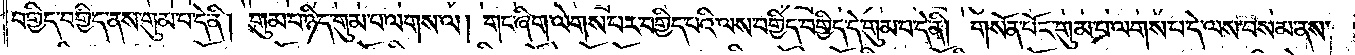བགྱིད་བགྱིད་ནས་གུམ་པ་དེ་ནི། གུམ་པ་ཉིད་གུམ་པ་ལགས་ལ། གང་ཞིག་ལེགས་པར་བགྱིད་པའི་ལས་བགྱིད་བགྱིད་དེ་གུམ་པ་དེ་ནི། གསོན་པོར་གུམ་པ་ལགས་པ་དེ་ལས་བསམ་ནས་
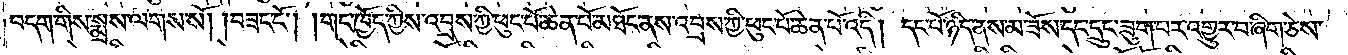བདག་གིས་སྨྲས་ལགས་སོ། །བཟང་ངོ༌། །གང་ཁྱོད་ཀྱིས་འབྲས་ཀྱི་ཕུང་པོ་ཆེན་པོ་མཐོང་ནས་འབྲས་ཀྱི་ཕུང་པོ་ཆེན་པོ་འདི། །དང་པོ་ཉིད་ནས་མ་ཟོས་དང་དྲུང་ཟུག་པར་འགྱུར་བ་ཞིག་ཅེས་
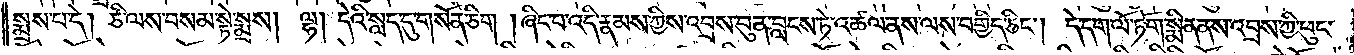སྨྲས་པ་དེ། ཅི་ལས་བསམ་སྟེ་སྨྲས། ལྷ། དེའི་སླད་དུ་གསོན་ཅིག །ཞིང་པ་འདི་རྣམས་ཀྱིས་འབྲས་བུན་བླངས་ཏེ་འཚལ་ནས་ལས་བགྱིད་ཅིང༌། དེ་དག་ལོ་ཏོག་སྨིན་ནས་འབྲས་ཀྱི་ཕུང་
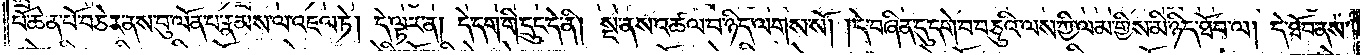པོ་ཆེན་པོ་བཅེར་ནས་བུ་ལོན་པ་རྣམས་ལ་འཇལ་ཏེ། དེ་ལྟར་ན། དེ་དག་གི་དྲུང་དེ་ནི། སྔ་ནས་འཚལ་བ་ཉིད་ལགས་སོ། །དེ་བཞིན་དུ་དགེ་བ་བཅུའི་ལས་ཀྱི་ལམ་གྱིས་མི་ཉིད་ཐོབ་ལ། དེ་ཐོབ་ནས་
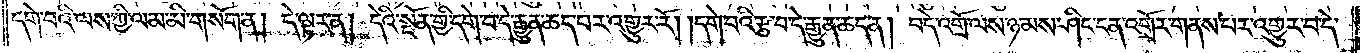དགེ་བའི་ལས་ཀྱིས་ལམ་མི་གསོག་ན། དེ་ལྟར་ན། དེའི་སྔོན་གྱི་དགེ་བ་དེ་རྒྱུན་ཆད་པར་འགྱུར་རོ། །དགེ་བའི་རྩ་བ་དེ་རྒྱུན་ཆད་ན། བདེ་འགྲོ་ལས་ཉམ་ཤིང་ངན་འགྲོར་གནས་པར་འགྱུར་བ་དེ་
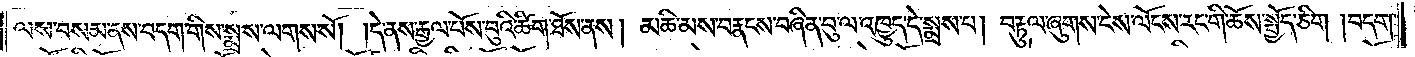ལས་བསམ་ནས་བདག་གིས་སྨྲས་ལགས་སོ། །དེ་ནས་རྒྱལ་པོས་བུའི་ཚིག་ཐོས་ནས། མཆི་མས་བརྣངས་བཞིན་བུ་ལ་འཁྱུད་དེ་སྨྲས་པ། བརྟུལ་ཞུགས་ངེས་ལོངས་རང་གི་ཆོས་སྤྱོད་ཅིག །བདག་
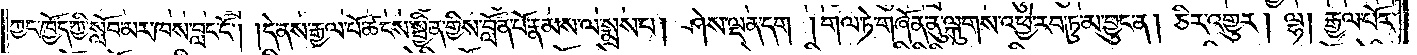ཀྱང་ཁྱོད་ཀྱི་སློབ་མར་ཁས་བླང་ངོ༌། །དེ་ནས་རྒྱལ་པོ་ཚངས་སྦྱིན་གྱིས་བློན་པོ་རྣམས་ལ་སྨྲས་པ། ཤེས་ལྡན་དག །གལ་ཏེ་གཞོན་ནུ་ལྐུགས་འཕྱེ་རབ་ཏུ་མ་བྱུང་ན། ཅིར་འགྱུར། །ལྷ། རྒྱལ་པོར་
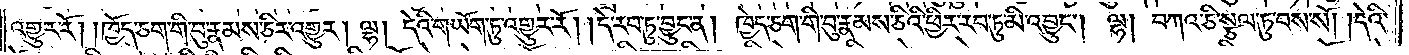འགྱུར་རོ། །ཁྱོད་ཅག་གི་བུ་རྣམས་ཅིར་འགྱུར། ལྷ། དེའི་གཡོག་ཏུ་འགྱུར་རོ། །དེ་རབ་ཏུ་བྱུང་ན། ཁྱེད་ཅག་གི་བུ་རྣམས་ཅིའི་ཕྱིར་རབ་ཏུ་མི་འབྱུང༌། །ལྷ། བཀའ་ཅི་སྩལ་ཏུ་བས་སོ། །དེའི་
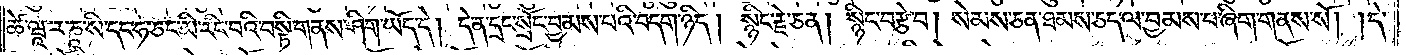ཚེ་ཝཱ་ར་ཎཱ་སི་དང་ཧ་ཅང་མི་རིང་བའི་བསྟི་གནས་ཤིག་ཡོད་དེ། དེ་ན་དྲང་སྲོང་བྱམས་པའི་བདག་ཉིད། སྙིང་རྗེ་ཅན། སྙིང་བརྩེ་བ། སེམས་ཅན་ཐམས་ཅད་ལ་བྱམས་པ་ཞིག་གནས་སོ། །དེ་
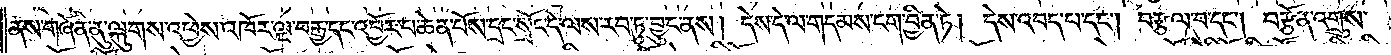ནས་གཞོན་ནུ་ལྐུགས་འཕྱེས་འཁོར་ལྔ་བརྒྱ་དང་འབྱོར་པ་ཆེན་པོས་དྲང་སྲོང་དེ་ལས་རབ་ཏུ་བྱུང་ནས། དེས་དེ་ལ་གདམས་ངག་བྱིན་ཏེ། དེས་འབད་པ་དང༌། བརྩལ་བ་དང༌། བརྩོན་འགྲུས་
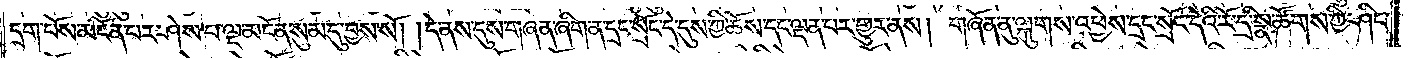དྲག་པོས་མངོན་པར་ཤེས་པ་ལྔ་མངོན་སུམ་དུ་བྱས་སོ། །དེ་ནས་དུས་གཞན་ཞིག་ན་དྲང་སྲོང་དེ་དུས་ཀྱི་ཆོས་དང་ལྡན་པར་གྱུར་ནས། གཞོན་ནུ་ལྐུགས་འཕྱེས་དྲང་སྲོང་དེའི་རོ་དྲི་སྣ་ཚོགས་ཀྱི་ཤིང་
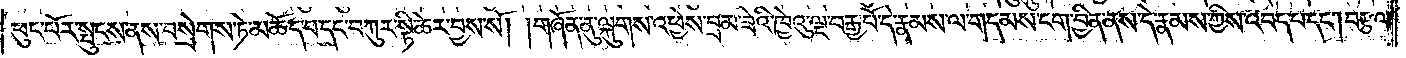ཕུང་པོར་སྤུངས་ནས་བསྲེགས་ཏེ་མཆོད་པ་དང་བཀུར་སྟི་ཚེར་བྱས་སོ། །གཞོན་ནུ་ལྐུགས་འཕྱེས་བྲམ་ཟེའི་ཁྱེའུ་ལྔ་བརྒྱ་པོ་དེ་རྣམས་ལ་གདམས་ངག་བྱིན་ནས་དེ་རྣམས་ཀྱིས་འབད་པ་དང༌། བརྩལ་
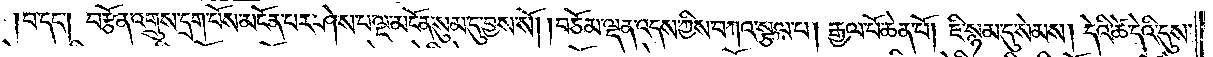།བ་དང༌། བརྩོན་འགྲུས་དྲག་པོས་མངོན་པར་ཤེས་པ་ལྔ་མངོན་སུམ་དུ་བྱས་སོ། །བཅོམ་ལྡན་འདས་ཀྱིས་བཀའ་སྩལ་པ། རྒྱལ་པོ་ཆེན་པོ། ཇི་སྙམ་དུ་སེམས། དེའི་ཚེ་དེའི་དུས་
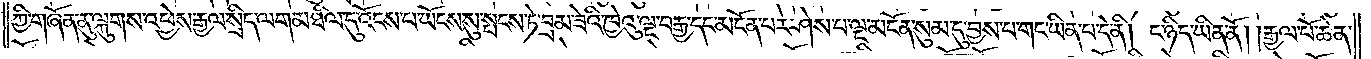ཀྱི་གཞོན་ནུ་ལྐུགས་འཕྱེས་རྒྱལ་སྲིད་ལག་མཐིལ་དུ་འོངས་པ་ཡོངས་སུ་སྤངས་ཏེ་བྲམ་ཟེའི་ཁྱེའུ་ལྔ་བརྒྱ་དང་མངོན་པར་ཤེས་པ་ལྔ་མངོན་སུམ་དུ་བྱས་པ་གང་ཡིན་པ་དེ་ནི། ང་ཉིད་ཡིན་ནོ། །རྒྱལ་པོ་ཆེན་
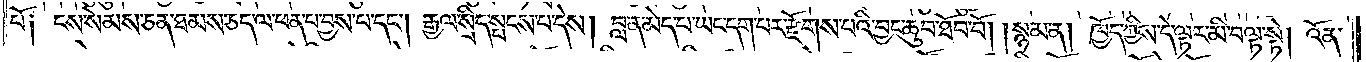པོ། ངས་སེམས་ཅན་ཐམས་ཅད་ལ་ཕན་པ་བྱས་པ་དང༌། རྒྱལ་སྲིད་སྤངས་པ་དེས། བླ་ན་མེད་པ་ཡང་དག་པར་རྫོགས་པའི་བྱང་ཆུབ་ཐོབ་བོ། །སྙམ་ན། ཁྱོད་ཀྱིས་དེ་ལྟར་མི་བལྟ་སྟེ། འོན་
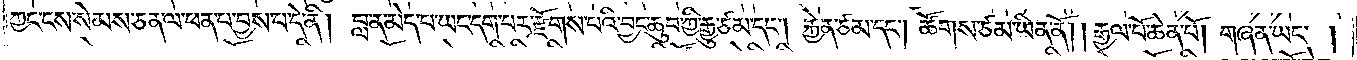ཀྱང་ངས་སེམས་ཅན་ལ་ཕན་པ་བྱས་པ་དེ་ནི། བླ་ན་མེད་པ་ཡང་དག་པར་རྫོགས་པའི་བྱང་ཆུབ་ཀྱི་རྒྱུ་ཙམ་དང༌། རྐྱེན་ཙམ་དང༌། ཚོགས་ཙམ་ཡིན་ནོ། །རྒྱལ་པོ་ཆེན་པོ། གཞན་ཡང༌།
